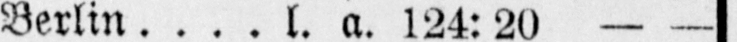Berlin l. a. 124:20 — —
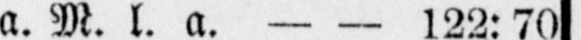Frankf. a. M. l. a. — — 122: 70
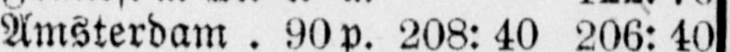Amsterdam . 90p. 208:40 206: 40
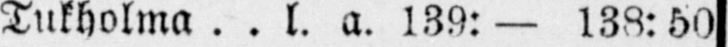Tukholma l. a. 139:— 138:50
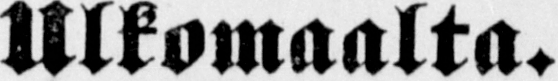Ulkomaalta.
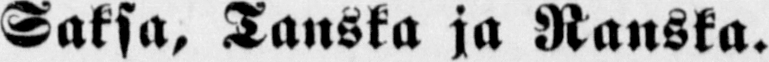Saksa, Tanska ja Ranska.
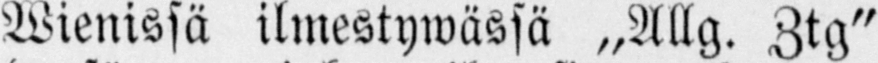Wienissä ilmestywässä „Allg. Ztg"
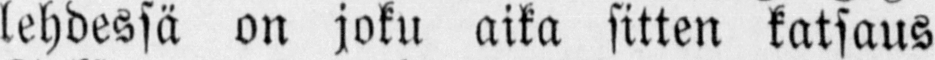lehdessä on joku aika sitten katsaus
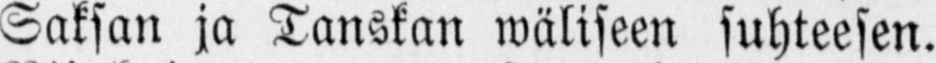Saksan ja Tanskan wäliseen suhteesen.
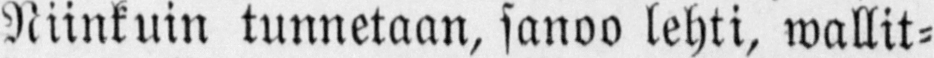Niinkuin tunnetaan, sanoo lehti, wallit-
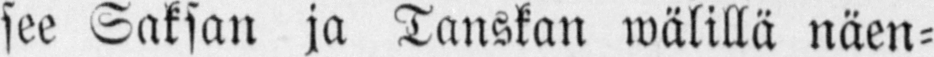see Saksan ja Tanskan wälillä näen-
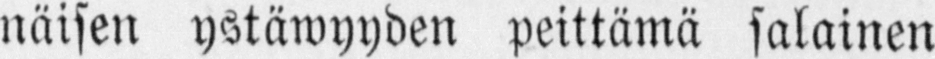näisen ystäwyyden peittämä salainen
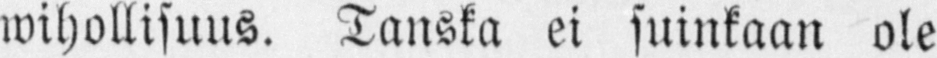wihollisuns. Tanska ei suinkaan ole
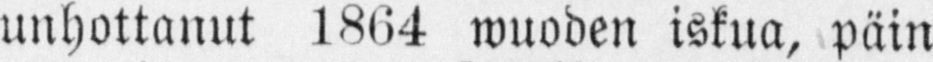unhottanut 1864 wuoden iskua, päin
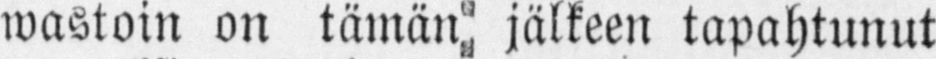wastoin on jälkeen tapahtunut
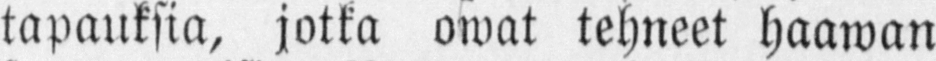tapauksia, jotka owat tehneet haawan
